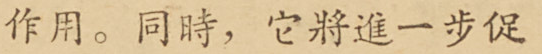作用。同時，它將進一步促
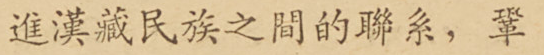進漢藏民族之間的聯系，鞏
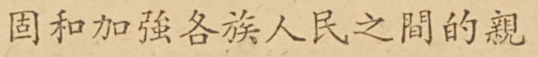固和加強各族人民之間的親
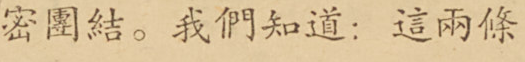密團結。我們知道：這兩條
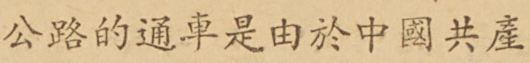公路段通車是由於中國共產
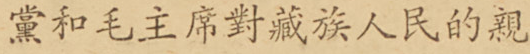黨和毛主席對藏族人民的親
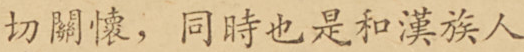切關懷，同時也是和漢族人
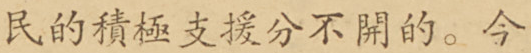民的積極支援分不開的。今
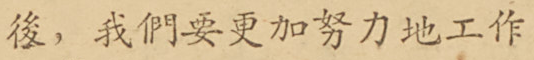後，我們要更加努力地工作
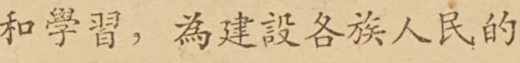和學習，為建設各族人民的
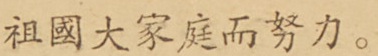祖國大家庭而努力。
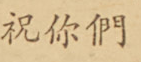祝你們
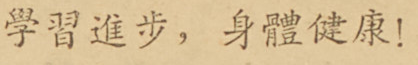學習進步，身體健康！
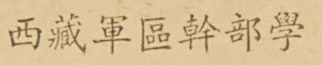西藏軍區幹部學
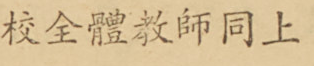校全體教師同上
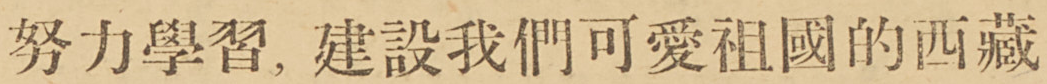努力學習，建設我們可愛祖國的西藏
